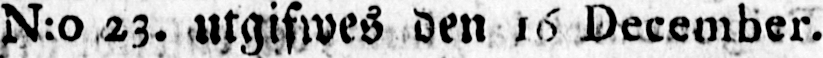N:o 23. utgifwes den l6 December.
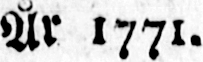År l77l.
